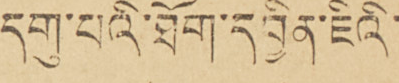དགུ་པའི་ཐོག་དབྱིན་ཇིའི་
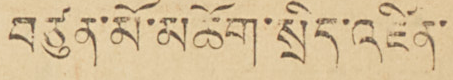བཙུན་མོ་མཆོག་སྲིད་འཛིན་
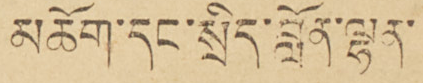མཆོག་དང་སྲིད་བློན་ལྷན་
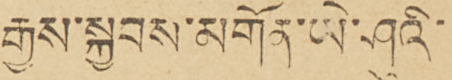རྒྱས་སྐྱབས་མགོན་ཡེ་ཤུའི་
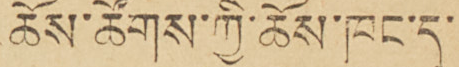ཆོས་ཚོགས་ཀྱི་ཆོས་ཁང་དུ་
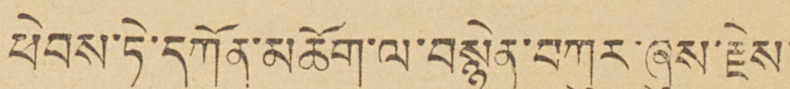ཕེབས་དེ་དཀོན་མཆོག་ལ་བསྙེན་བཀུར་ཞུས་རྗེས་
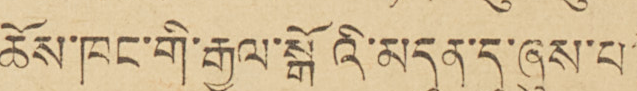ཆོས་ཁང་གི་རྒྱལ་སྒོའི་མདུན་དུ་ཞུས་པའི་
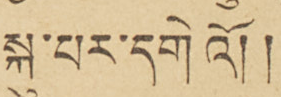སྐུ་པར་དགེའོ།།
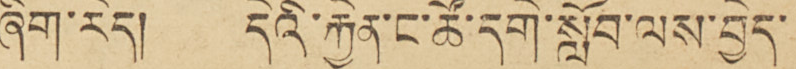ཞིག་རེད། དེའི་རྐྱེན་ང་ཚོ་དགེ་སློབ་ལས་བྱེད་
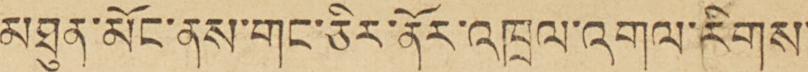མཐུན་མོང་ནས་གང་ཅིར་ནོར་འཁྲུལ་འགལ་རིགས་
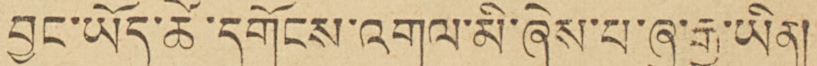བྱུང་ཡོད་ཚེ་དགོངས་འགལ་མི་ཞེས་པ་ཞུ་རྒྱུ་ཡིན།
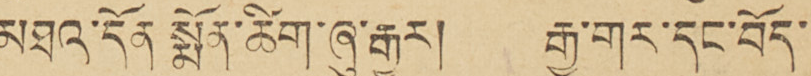མཐའ་དོན སྨོན་ཚིག་ཞུ་རྒྱུར། རྒྱ་གར་དང་བོད་
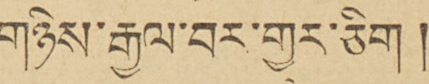གཉིས་རྒྱལ་བར་གྱུར་ཅིག །
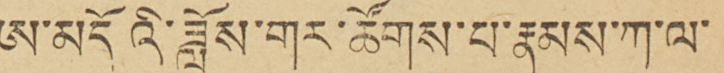ཨ་མདོའི་ཟློས་གར་ཚོགས་པ་རྣམས་ཀ་ལ་
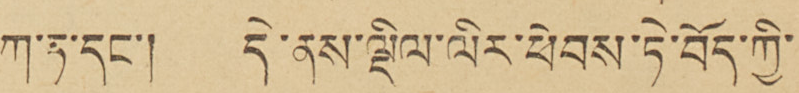ཀ་ཏ་དང་། དེ་ནས་ལྡིལ་ལིར་ཕེབས་ཏེ་བོད་ཀྱི་
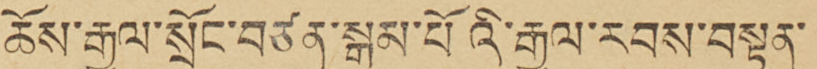ཆོས་རྒྱལ་སྲོང་བཙན་སྒམ་པོའི་རྒྱལ་རབས་བསྟན་
